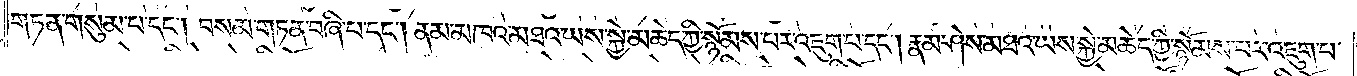གཏན་གསུམ་པ་དང༌། བསམ་གཏན་བཞི་པ་དང༌། ནམ་མཁའ་མཐའ་ཡས་སྐྱེ་མཆེད་ཀྱི་སྙོམས་པར་འཇུག་པ་དང༌། རྣམ་ཤེས་མཐའ་ཡས་སྐྱེ་མཆེད་ཀྱི་སྙོམས་པར་འཇུག་པ་
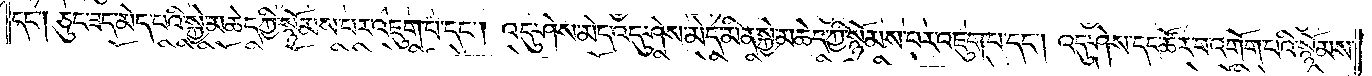དང༌། ཅུང་ཟད་མེད་པའི་སྐྱེ་མཆེད་ཀྱི་སྙོམས་པར་འཇུག་པ་དང༌། འདུ་ཤེས་མེད་འདུ་ཤེས་མེད་མིན་སྐྱེ་མཆེད་ཀྱི་སྙོམས་པར་འཇུག་པ་དང༌། འདུ་ཤེས་དང་ཚོར་བ་འགོག་པའི་སྙོམས་
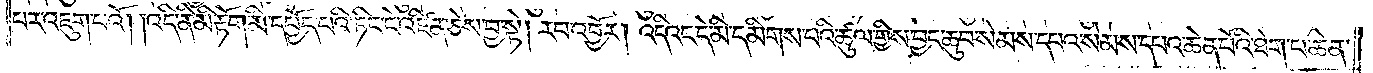པར་འཇུག་པའོ། །འདི་ནི་མི་རྟག་མི་དཔྱོད་པའི་ཏིང་ངེ་འཛིན་ཅེས་བྱ་སྟེ། རབ་འབྱོར། འདིའང་དེ་མི་དམིགས་པའི་ཚུལ་གྱིས་བྱང་ཆུབ་སེམས་དཔའ་སེམས་དཔའ་ཆེན་པོའི་ཐེག་པ་ཆེན་
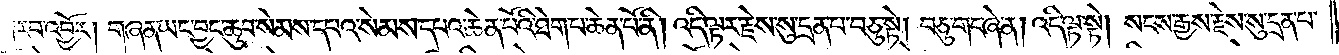རབ་འབྱོར། གཞན་ཡང་བྱང་ཆུབ་སེམས་དཔའ་སེམས་དཔའ་ཆེན་པོའི་ཐེག་པ་ཆེན་པོ་ནི། འདི་ལྟར་རྗེས་སུ་དྲན་པ་བཅུ་སྟེ། བཅུ་གང་ཞེ་ན། འདི་ལྟ་སྟེ། སངས་རྒྱས་རྗེས་སུ་དྲན་པ་
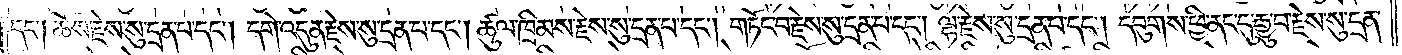དང༌། ཆོས་རྗེས་སུ་དྲན་པ་དང༌། དགེ་འདུན་རྗེས་སུ་དྲན་པ་དང༌། ཚུལ་ཁྲིམས་རྗེས་སུ་དྲན་པ་དང༌། གཏོང་བ་རྗེས་སུ་དྲན་པ་དང༌། ལྷ་རྗེས་སུ་དྲན་པ་དང༌། དབུགས་ཕྱི་ནང་དུ་རྒྱུ་བ་རྗེས་སུ་དྲན་
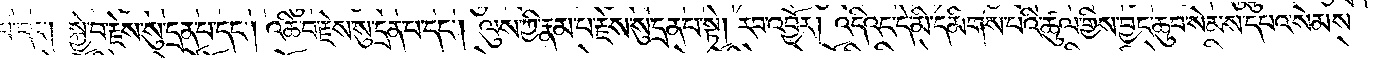པ་དང༌། སྐྱེ་བ་རྗེས་སུ་དྲན་པ་དང༌། འཆི་བ་རྗེས་སུ་དྲན་པ་དང༌། ལུས་ཀྱི་རྣམ་པ་རྗེས་སུ་དྲན་པ་སྟེ། རབ་འབྱོར། འདིའང་དེ་མི་དམིགས་པའི་ཚུལ་གྱིས་བྱང་ཆུབ་སེམས་དཔའ་སེམས་
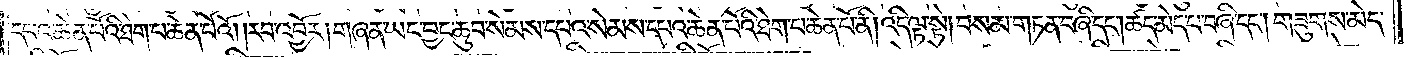དཔའ་ཆེན་པོའི་ཐེག་པ་ཆེན་པོའོ། །རབ་འབྱོར། གཞན་ཡང་བྱང་ཆུབ་སེམས་དཔའ་སེམས་དཔའ་ཆེན་པོའི་ཐེག་པ་ཆེན་པོ་ནི། འདི་ལྟ་སྟེ། བསམ་གཏན་བཞི་དང༌། ཚད་མེད་པ་བཞི་དང༌། གཟུགས་མེད་
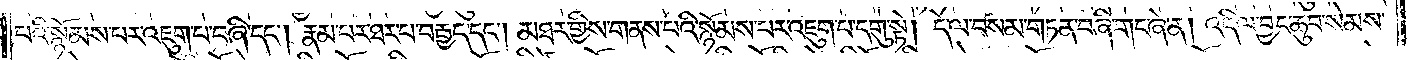པའི་སྙོམས་པར་འཇུག་པ་བཞི་དང༌། རྣམ་པར་ཐར་པ་བརྒྱད་དང༌། མཐར་གྱིས་གནས་པའི་སྙོམས་པར་འཇུག་པ་དགུ་སྟེ། དེ་ལ་བསམ་གཏན་བཞི་གང་ཞེ་ན། འདི་ལ་བྱང་ཆུབ་སེམས་
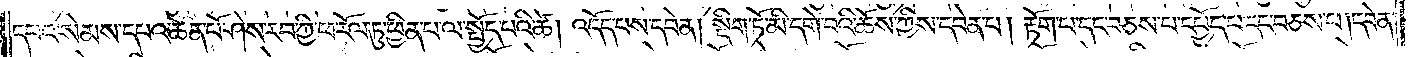དཔའ་སེམས་དཔའ་ཆེན་པོ་ཤེས་རབ་ཀྱི་ཕ་རོལ་ཏུ་ཕྱིན་པ་ལ་སྤྱོད་པའི་ཚེ། འདོད་པས་དབེན། སྡིག་ཏོ་མི་དགེ་བའི་ཆོས་ཀྱིས་དབེན་པ། རྟོག་པ་དང་བཅས་པ་དཔྱོད་པ་དང་བཅས་པ། དབེན་
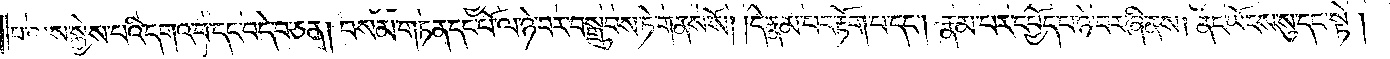པ་ལས་སྐྱེས་པའི་དགའ་བ་དང་བདེ་བ་ཅན། བསམ་གཏན་དང་པོ་ལ་ཉེ་བར་བསྒྲུབས་ཏེ་གནས་སོ། །དེ་རྣམ་པར་རྟོག་པ་དང༌། རྣམ་པར་དཔྱོད་པ་ཉེ་བར་ཞི་ནས། ནང་ཡོངས་སུ་དང་སྟེ།
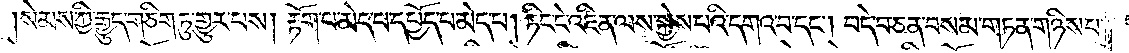སེམས་ཀྱི་རྒྱུད་གཅིག་ཏུ་གྱུར་པས། རྟོག་པ་མེད་པ་དཔྱོད་པ་མེད་པ། ཏིང་ངེ་འཛིན་ལས་སྐྱེས་པའི་དགའ་བ་དང༌། བདེ་བ་ཅན་བསམ་གཏན་གཉིས་པ་
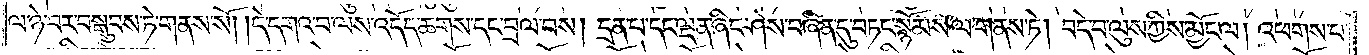ལ་ཉེ་བར་བསྒྲུབས་ཏེ་གནས་སོ། །དེ་དགའ་བ་ལས་འདོད་ཆགས་དང་བྲལ་བས། དྲན་པ་དང་ལྡན་ཞིང་ཤེས་བཞིན་དུ་བཏང་སྙོམས་ལ་གནས་ཏེ། བདེ་བ་ལུས་ཀྱིས་མྱོང་ལ། འཕགས་པ་
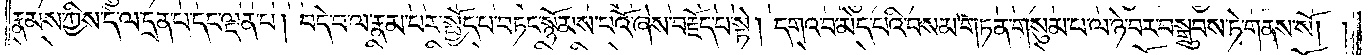རྣམས་ཀྱིས་དེ་ལ་དྲན་པ་དང་ལྡན་པ། བདེ་བ་ལ་རྣམ་པར་སྤྱོད་པ་བཏང་སྙོམས་པའོ་ཞེས་བརྗོད་པ་སྟེ། དགའ་བ་མེད་པའི་བསམ་གཏན་གསུམ་པ་ལ་ཉེ་བར་བསྒྲུབས་ཏེ་གནས་སོ། །
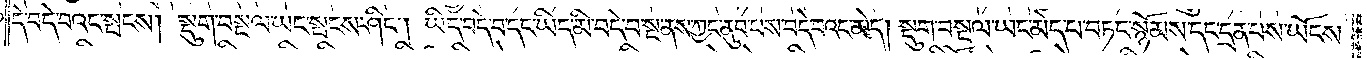དེ་བདེ་བའང་སྤངས། སྡུག་བསྔལ་ཡང་སྤངས་ཤིང༌། ཡིད་བདེ་བ་དང་ཡིད་མི་བདེ་བ་སྔ་ནས་ཀྱང་ནུབ་པས་བདེ་བའང་མེད། སྡུག་བསྔལ་ཡང་མེད་པ་བཏང་སྙོམས་དང་དྲན་པས་ཡོངས་
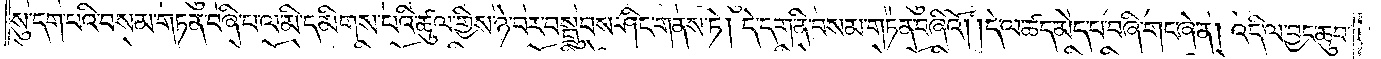སུ་དག་པའི་བསམ་གཏན་བཞི་པ་ལ་མི་དམིགས་པའི་ཚུལ་གྱིས་ཉེ་བར་བསྒྲུབས་ཤིང་གནས་ཏེ། དེ་དག་ནི་བསམ་གཏན་བཞིའོ། དེ་ལ་ཚད་མེད་པ་བཞི་གང་ཞེ་ན། འདི་ལ་བྱང་ཆུབ་
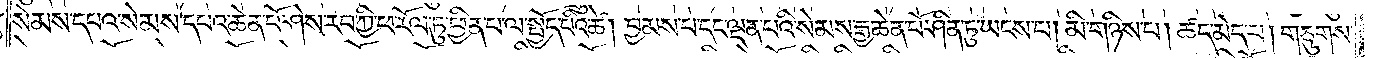སེམས་དཔའ་སེམས་དཔའ་ཆེན་པོ་ཤེས་རབ་ཀྱི་ཕ་རོལ་ཏུ་ཕྱིན་པ་ལ་སྤྱོད་པའི་ཚེ། བྱམས་པ་དང་ལྡན་པའི་སེམས་རྒྱ་ཆེན་པོ་ཤིན་ཏུ་ཡངས་པ། མི་གཉིས་པ། ཚད་མེད་པ། གཅུགས་
